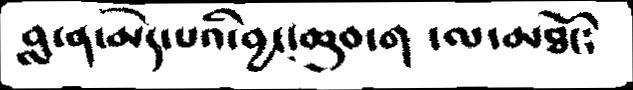བླ་ན་མེད་པའི་བྱང་ཆུབ་ག་ལ་མཐོང༴
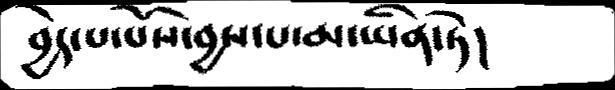བྱེད་པ་པོས་བྱས་པ་མ་ཡིན་ཏེ།
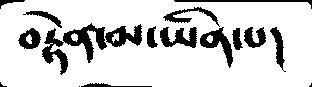བརྟེན་མ་ཡིན་པ།
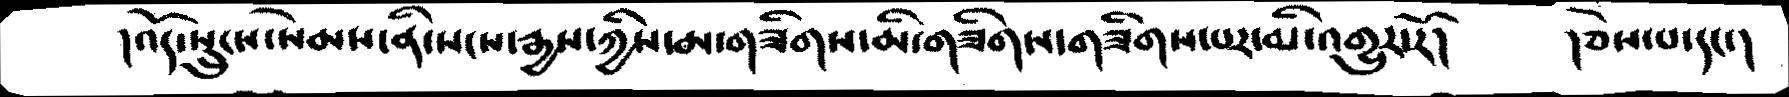འོད་སྲུངས་སེམས་ནི་སངས་རྒྱས་ཀྱིས་མ་གཟིགས་མི་གཟིགས་གཟིགས་པར་མི་འགྱུར་རོ།           །ཅེས་པ་དང་།
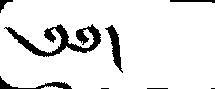༄༅།
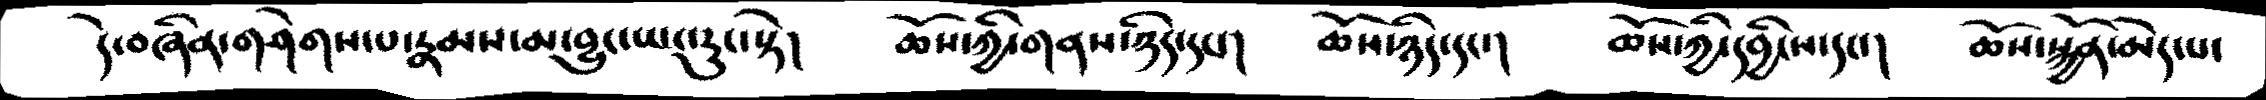དེ་བཞིན་གཤེགས་པ་རྣམས་མ་བྱུང་ཡང་རུང་སྟེ།    ཆོས་ཀྱི་གནས་ཉིད་དང་།     ཆོས་ཉིད་དང་།    ཆོས་ཀྱི་དབྱིངས་དང་།      ཆོས་སྐྱོན་མེད་པ་
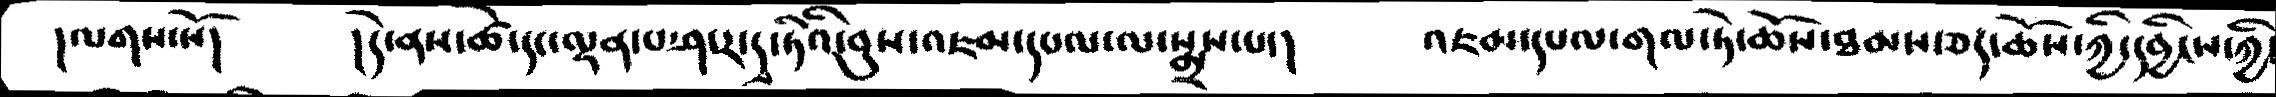།ལགས་སོ།    །དེ་ནས་ཚེ་དང་ལྡན་པ་ཤ་ར་དྭ་ཏིའི་བུས་འཇམ་དཔལ་ལ་སྨྲས་པ་།  འཇམ་དཔལ་གལ་ཏེ་ཆོས་ཐམས་ཅད་ཆོས་ཀྱི་དབྱིངས་ཀྱི་
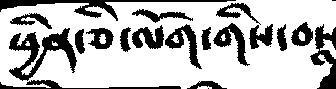ཕྱིན་ཅི་ལོག་གིས་བསླ
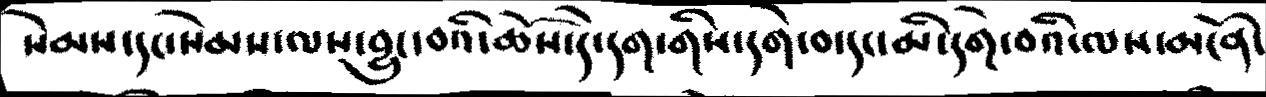སེམས་དང་སེམས་ལས་བྱུང་བའི་ཆོས་དེ་དག་གིས་དགེ་བ་དང་མི་དགེ་བའི་ལས་མངོན་
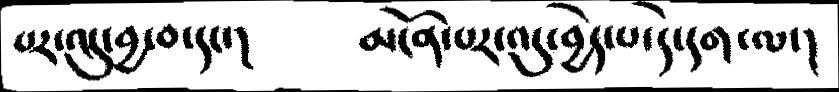པར་འདུ་བྱ་བ་དང་།     མངོན་པར་འདུ་བྱེད་པ་དེ་དག་ལ་།
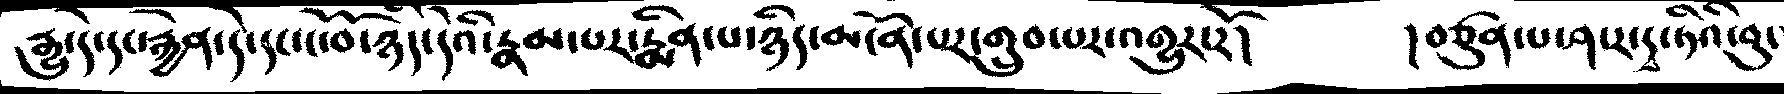རྒྱུ་དེ་དང་རྐྱེན་དེ་དང་ངོ་བོ་ཉིད་དེའི་རྣམ་པར་རྨིན་པ་ཉིད་མངོན་པར་གྲུབ་པར་འགྱུར་རོ།    །བཙུན་པ་ཤ་ར་དྭ་ཏིའི་བུ་
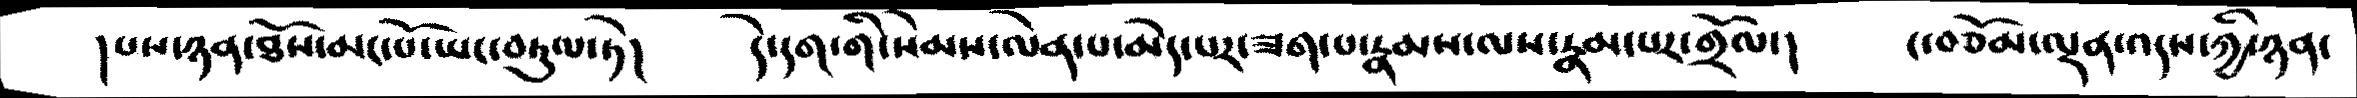།པས་ཉན་ཐོས་མང་པོ་ཡང་བཏུལ་ཏེ།   དེ་དག་གི་སེམས་ལེན་པ་མེད་པར་ཟག་པ་རྣམས་ལས་རྣམ་པར་གྲོལ།  ང་བཅོམ་ལྡན་འདས་ཀྱི་ཉན་
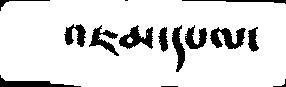འཇམ་དཔལ་
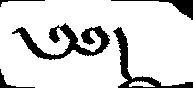༄༅།
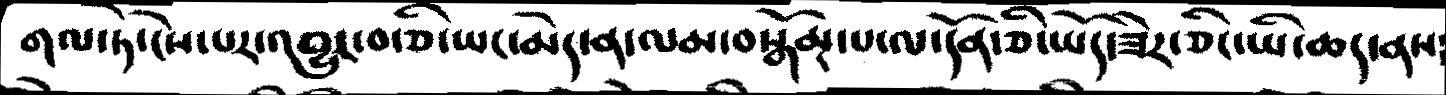གལ་ཏེ་ངེས་པར་འབྱུང་བ་ཅི་ཡང་མེད་ན་ལམ་བསྒོམ་པ་ལ་དོན་ཅི་ཡོད་ཟེར་ཅིང་ཡི་ཆད་ནས་
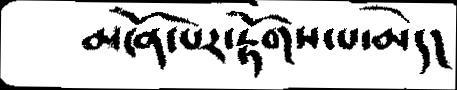མངོན་པར་རྟོགས་པ་མེད།
